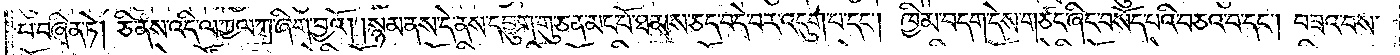པ་བཞིན་ཏེ། ཅི་ནས་འདི་ལ་ཀྱལ་ཀ་ཞིག་བྱའོ། །སྙམ་ནས་དེ་ནས་དབྱུག་གུ་ཅན་མང་པོ་ཐམས་ཅད་བདེ་བར་འདུག་པ་དང༌། ཁྱིམ་བདག་དེས་གཙང་ཞིང་བསོད་པའི་བཅའ་བ་དང༌། བཟའ་བས་
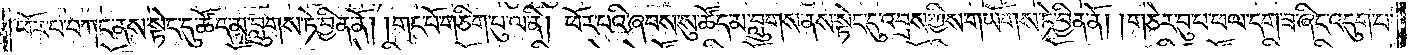ཕོར་པ་བཀང་ནས་སྟེང་དུ་ཚོད་མ་བླུགས་ཏེ་བྱིན་ནོ། །གང་པོ་གཅིག་པུ་ལ་ནི། ཕོར་པའི་ཞབས་སུ་ཚོད་མ་བླུགས་ནས་སྟེང་དུ་འབྲས་ཀྱིས་གཡོགས་ཏེ་བྱིན་ནོ། །གཅེར་བུ་པ་ཕལ་དག་ཟ་ཞིང་འདུག་པ་
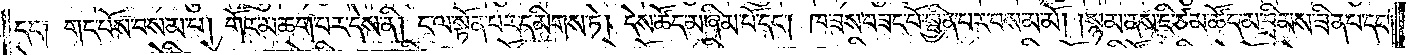དང༌། གང་པོས་བསམ་པ། གོར་མ་ཆག་པར་དེས་ནི། ང་ལ་སྟོན་པར་དམིགས་ཏེ། དེས་ཚོད་མ་ཞིམ་པོ་དང༌། ཁ་ཟས་བཟང་པོ་སྦྱིན་པར་བསམ་མོ། །སྙམ་ནས་ཇི་ཙམ་ཚོད་མ་བྲིམས་ཟིན་པ་དང༌།
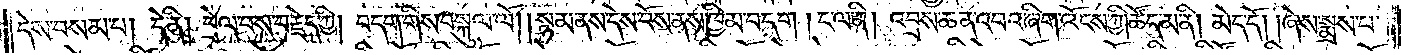དེས་བསམ་པ། དེ་ནི། བྲེལ་བས་བརྗེད་ཀྱི། བདག་གིས་བསྐུལ་ལོ། །སྙམ་ནས་དེས་བོས་ནས་ཁྱིམ་བདག །ང་ལ་ནི། འབྲས་ཆན་འབའ་ཞིག་འོངས་ཀྱི། ཚོད་མ་ནི། མེད་དོ། །ཞེས་སྨྲས་པ་
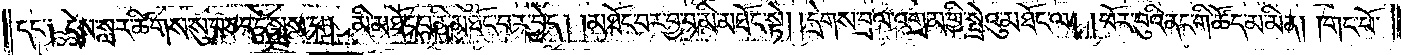དང༌༑ དེས་སླར་ཚིགས་སུ་བཅད་དེ་སྨྲས་པ། མི་མཐོང་བ་ནི་མཐོང་བར་བྱེད། །མཐོང་བར་བྱ་བ་མི་མཐོང་སྟེ། །དྲེགས་བྲལ་འགྲམ་གྱི་སྤྲེའུ་མཐོང་ལ། །ཕོར་བུའི་ནང་ག་ཚོད་མ་མིན། །གང་པོ་
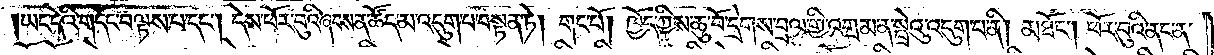ཡང་དེའི་གདོང་བལྟས་པ་དང༌། དེས་ཕོར་བུའི་ཞབས་ན་ཚོད་མ་འདུག་པ་བསྟན་ཏེ། གང་པོ། ཁྱོད་ཀྱིས་ཆུ་བོ་དྲེགས་བྲལ་གྱི་འགྲམ་ན་སྤྲེའུ་འདུག་པ་ནི། མཐོང༌། ཕོར་བུའི་ནང་ན་
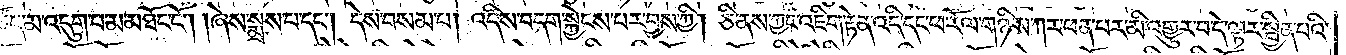ཚོད་མ་འདུག་པ་མ་མཐོང་ངོ༌། །ཞེས་སྨྲས་པ་དང༌། དེས་བསམ་པ། འདིས་བདག་སྐྱེངས་པར་བྱས་ཀྱི། ཅི་ནས་ཀྱང་འཇིག་རྟེན་འདི་དང་ཕ་རོལ་གཉིས་ཀར་ཕན་པར་མི་འགྱུར་བ་དེ་ལྟར་སྦྱིན་པའི་
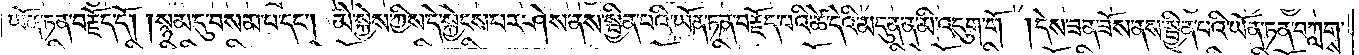ཡོན་ཏན་བརྗོད་དོ། །སྙམ་དུ་བསམ་པ་དང༌། མེ་སྐྱེས་ཀྱིས་དེ་སྐྱེངས་པར་ཤེས་ནས་སྦྱིན་པའི་ཡོན་ཏན་བརྗོད་པའི་ཚེ་དེའི་མདུན་ན་མི་འདུག་གོ། །དེས་ཟན་ཟོས་ནས་སྦྱིན་པའི་ཡོན་ཏན་བཀླགས་
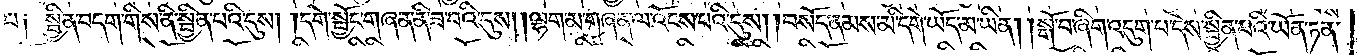པ༑ སྦྱིན་བདག་གིས་ནི་སྦྱིན་པའི་དུས། །དགེ་སྦྱོང་གཞན་ནི་ཟ་བའི་དུས། །ལྷག་མ་གཞན་ལ་འོངས་པའི་དུས། །བསོད་ནམས་མི་དགེ་ཡོད་མ་ཡིན། །སྒོ་བ་ཞིག་འདུག་པ་དེས་སྦྱིན་པའི་ཡོན་ཏན་
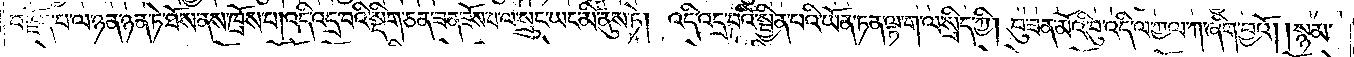བརྗོད་པ་ལ་ཉན་ཉན་ཏེ་ཐོས་ནས་ཁྲོས་པ། འདི་འདྲ་བའི་སྡིག་ཅན་ཟན་ཟོས་པ་ལ་སྲུང་ཡང་མི་ནུས་ཏེ། འདི་འདྲ་བའི་སྦྱིན་པའི་ཡོན་ཏན་ལྟ་ག་ལ་སྲིད་ཀྱི། བུ་ཟན་མོའི་བུ་འདི་ལ་ཀྱལ་ཀ་ཞིག་བྱའོ། །སྙམ་
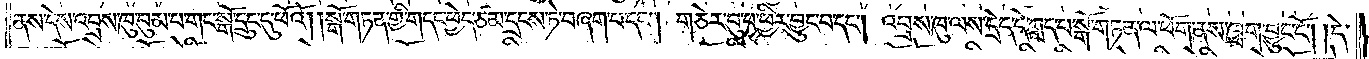ནས་དེས་འབྲས་ཁུ་བུམ་པ་གང་སྒོ་དྲུང་དུ་ཕོའོ། །སྒོ་གཏན་གྱི་གདང་ཕྱེད་ཙམ་དྲངས་ཏེ་བཞག་པ་དང༌། གཅེར་བུ་པ་ཕྱིར་བྱུང་བ་དང༌། འབྲས་ཁུ་ལས་དྲེད་དེ་ཀླད་པ་སྒོ་གཏན་ལ་ཕོག་ནས་ཁྲག་བྱུང་ངོ༌། །དེ་
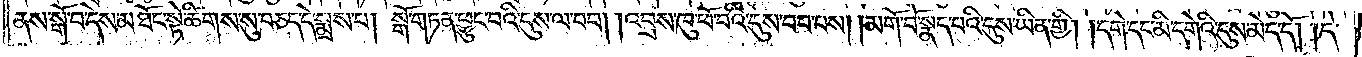ནས་སྒོ་བ་དེས་མཐོང་སྟེ་ཚིགས་སུ་བཅད་དེ་སྨྲས་པ། སྒོ་གཏན་ཕྱུང་བའི་དུས་ལ་བབ། །འབྲས་ཁུ་ཕོ་བའི་དུས་བབ་པས། །མགོ་བོ་སྣད་པའི་དུས་ཡིན་གྱི། །དགེ་དང་མི་དགེའི་དུས་མེད་དོ། །དེ་
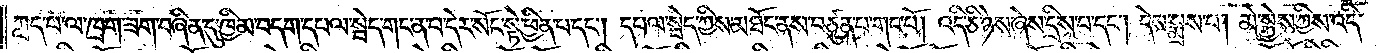ཀླད་པ་ལ་ཁྲག་ཟག་བཞིན་དུ་ཁྱིམ་བདག་དཔལ་སྦེད་གང་ན་བ་དེར་སོང་སྟེ་ཕྱིན་པ་དང༌། དཔལ་སྦེད་ཀྱིས་མཐོང་ནས་བཙུན་པ་གང་པོ། འདི་ཅི་ཉེས་ཞེས་དྲིས་པ་དང༌། དེས་སྨྲས་པ། མེ་སྐྱེས་ཀྱིས་འདི་
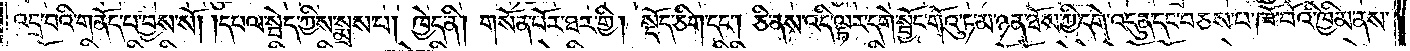འདྲ་བའི་གནོད་པ་བྱས་སོ། །དཔལ་སྦེད་ཀྱིས་སྨྲས་པ། ཁྱེད་ནི། གསོན་པོར་ཐར་གྱི། སྡོད་ཅིག་དང༌། ཅི་ནས་འདི་ལྟར་དགེ་སྦྱོང་གོའུ་ཏ་མ་ཉན་ཐོས་ཀྱི་དགེ་འདུན་དང་བཅས་པ་ཁོ་བོའི་ཁྱིམ་ནས་
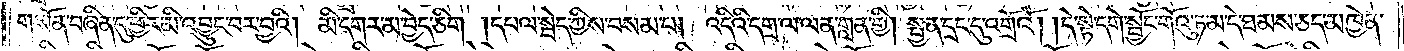གསོན་བཞིན་དུ་ཕྱིར་མི་འབྱུང་བར་བྱའི། མི་དགར་མ་བྱེད་ཅིག །དཔལ་སྦེད་ཀྱིས་བསམ་པ། འདིའི་དགྲ་ལ་ལན་གླན་གྱི། སྤྱན་དྲང་དུ་འགྲོའོ། །དེ་སྟེ་དགེ་སྦྱོང་གོའུ་ཏ་མ་དེ་ཐམས་ཅད་མཁྱེན་
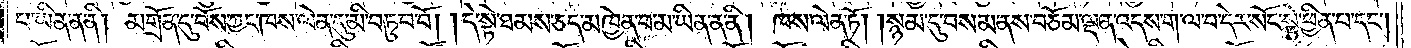པ་ཡིན་ན་ནི། མགྲོན་དུ་བོས་ཀྱང་ཁས་ལེན་དུ་མི་བཏུབ་བོ། །དེ་སྟེ་ཐམས་ཅད་མཁྱེན་པ་མ་ཡིན་ན་ནི། ཁས་ལེན་ཏོ། །སྙམ་དུ་བསམ་ནས་བཅོམ་ལྡན་འདས་ག་ལ་བ་དེར་སོང་སྟེ་ཕྱིན་པ་དང༌།
